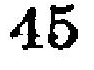45
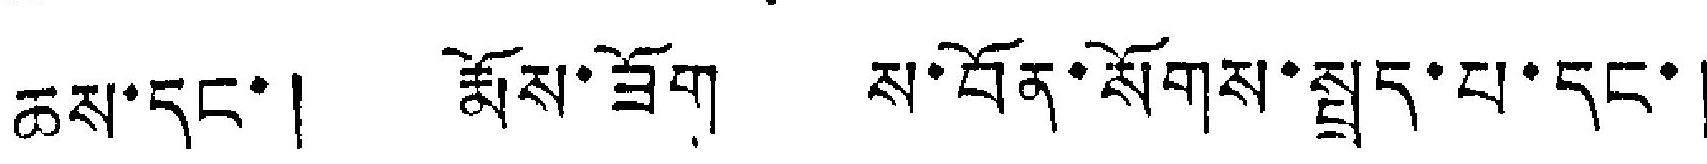ཆས་དང་། རྨོས་ཟོག ས་བོན་སོགས་སྤྲད་པ་དང་།
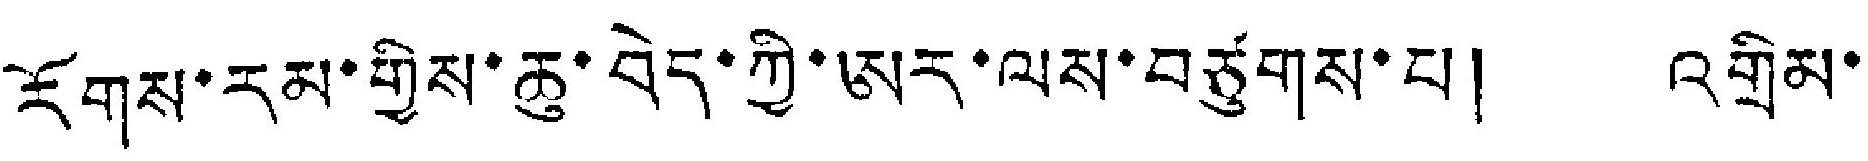རོགས་རམ་གྱིས་ཆུ་བེད་ཀྱི་ཨར་ལས་བཙུགས་པ། འགྲིམ་
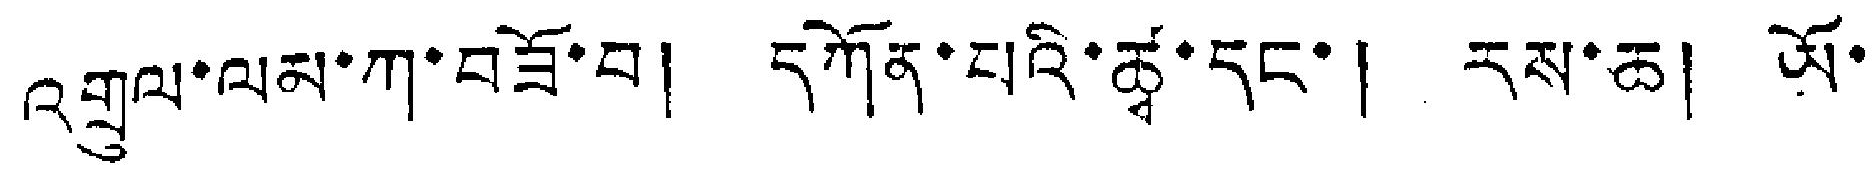འགྲུལ་ལམ་ཀ་བཟོ་བ། དཀོན་པའི་ཚྭ་དང་། རས་ཆ། ཡོ་
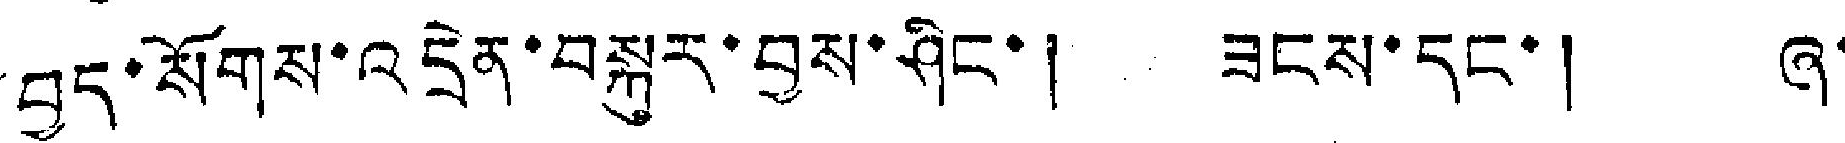བྱད་སོགས་འདྲེན་བསྐུར་བྱས་ཤིང་། ཟངས་དང་། ཞ་
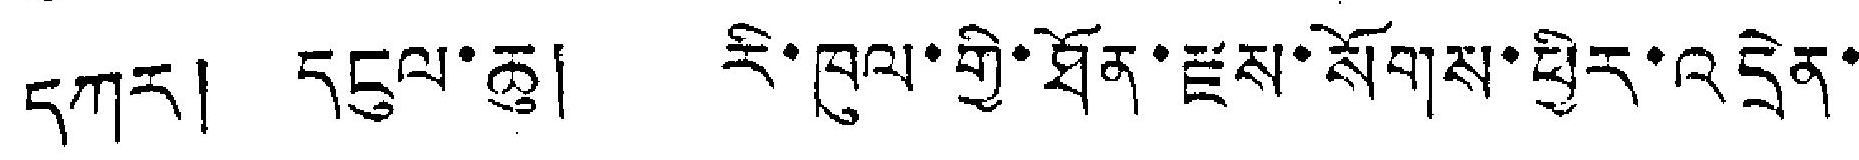དཀར། དངུལ་ཆུ། རི་ཁུལ་གྱི་ཐོན་རྫས་སོགས་ཕྱིར་འདྲེན་
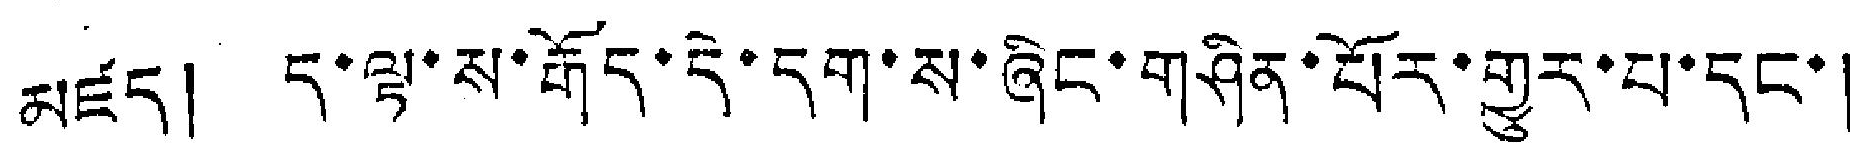མཛད། ད་ལྟ་ས་རྒོད་དེ་དག་ས་ཞིང་གཤིན་པོར་གྱུར་པ་དང་།
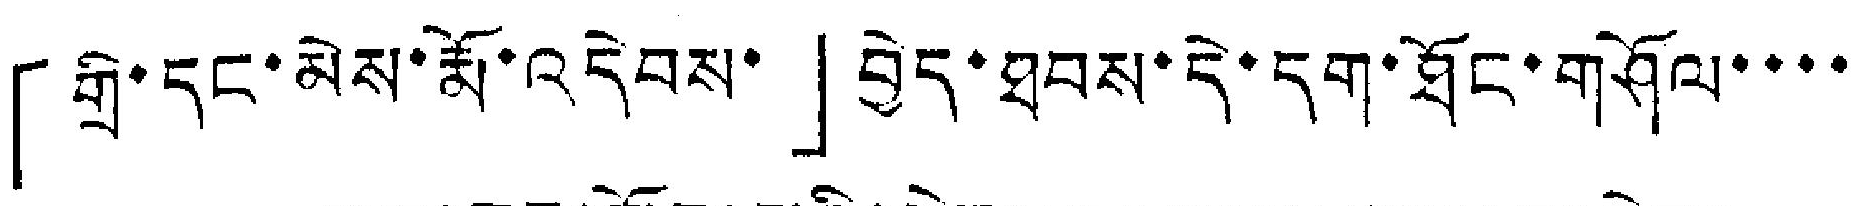「གྲི་དང་མེས་རྨོ་འདེབས་」བྱེད་ཐབས་དེ་དག་ཐོང་གཤོལ་་་་
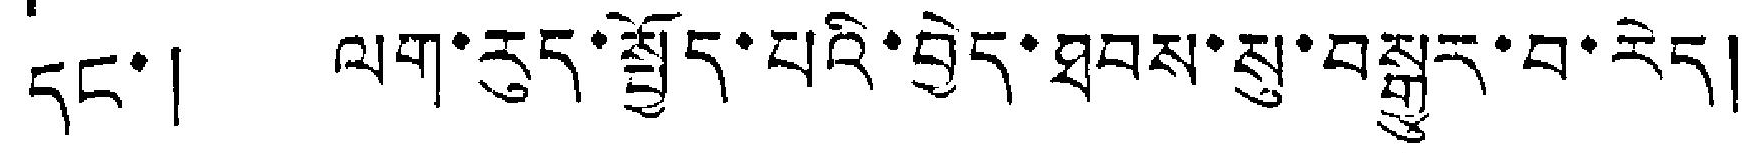དང་། ལག་རུད་སྤྱོད་པའི་བྱེད་ཐབས་སུ་བསྒྱུར་བ་རེད།
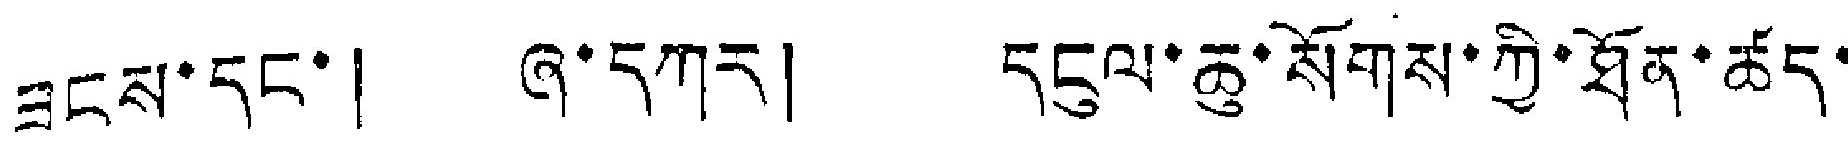ཟངས་དང་། ཞ་དཀར། དངུལ་ཆུ་སོགས་ཀྱི་ཐོན་ཚད་་
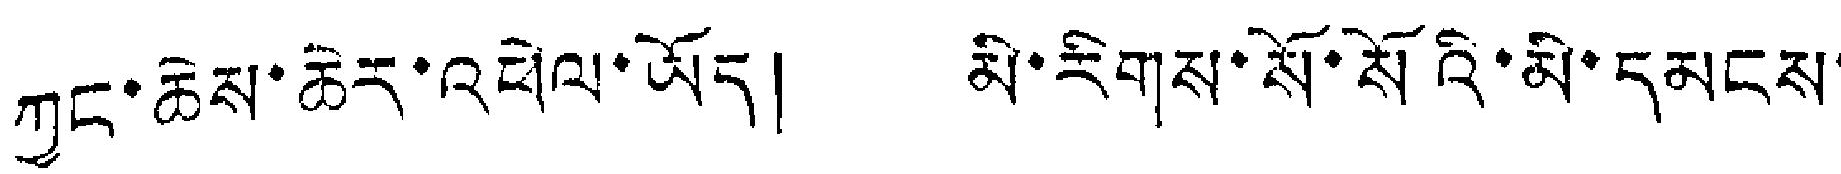ཀྱང་ཆེས་ཆེར་འཕེལ་ཡོད། མི་རིགས་སོ་སོའི་མི་དམངས་
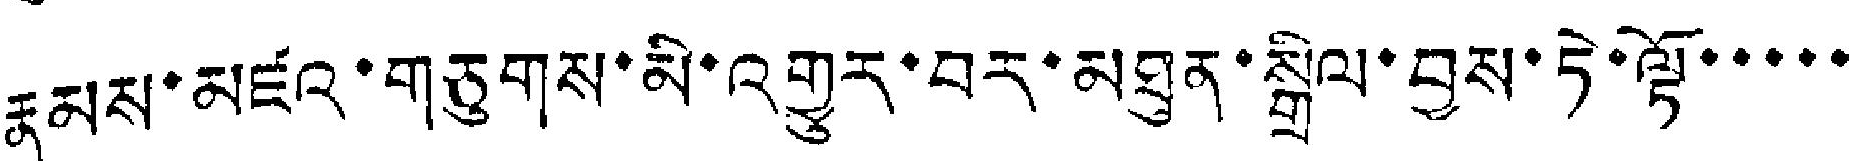རྣམས་མཛའ་གཅུགས་མི་འགྱུར་བར་མཐུན་སྒྲིལ་བྱས་ཏེ་ལྟོ་་་་་་
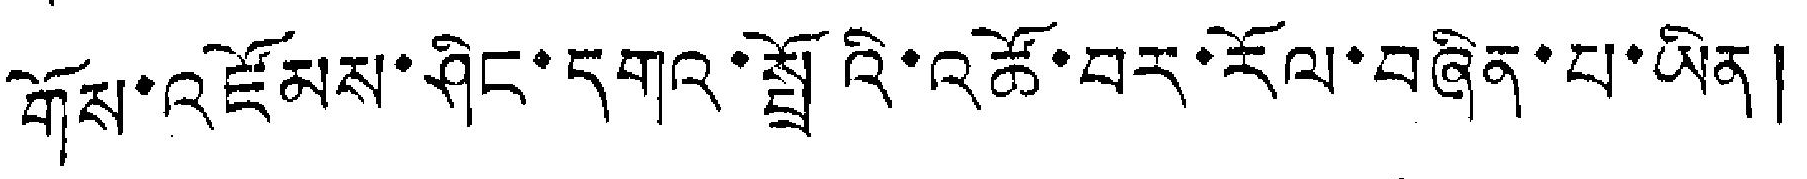གོས་འཛོམས་ཤིང་དགའ་སྤྲོའི་འཚོ་བར་རོལ་བཞིན་པ་ཡིན།
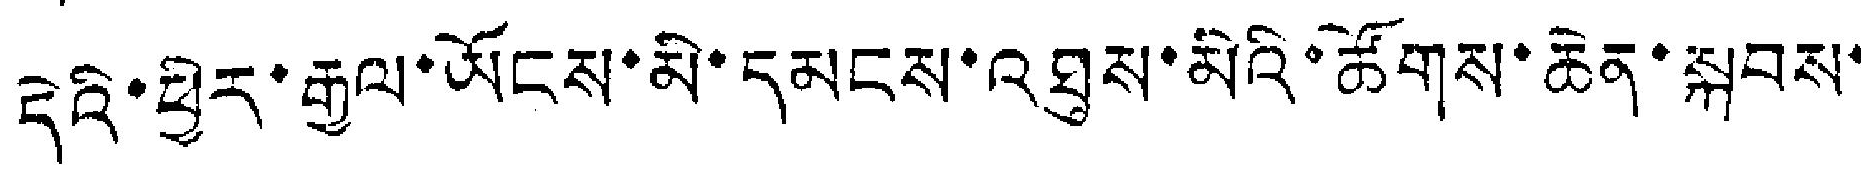དེའི་ཕྱིར་རྒྱལ་ཡོངས་མི་དམངས་འཐུས་མིའི་ཚོགས་ཆེན་སྐབས་
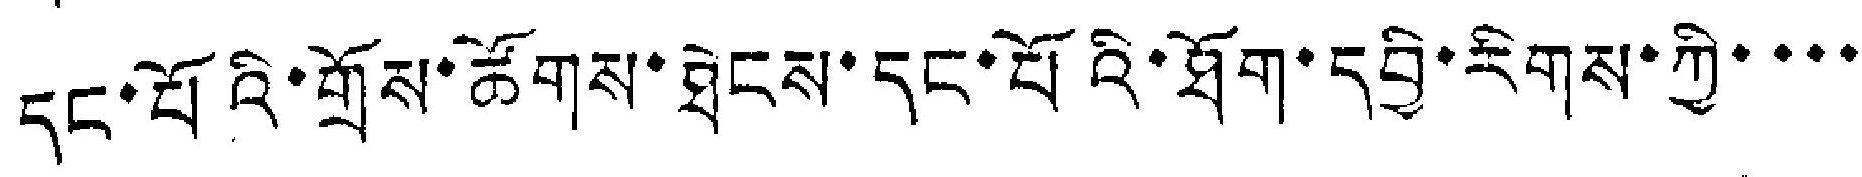དང་པོའི་གྲོས་ཚོགས་ཐེངས་དང་པོའི་ཐོག་དབྱི་རིགས་ཀྱི་་་་
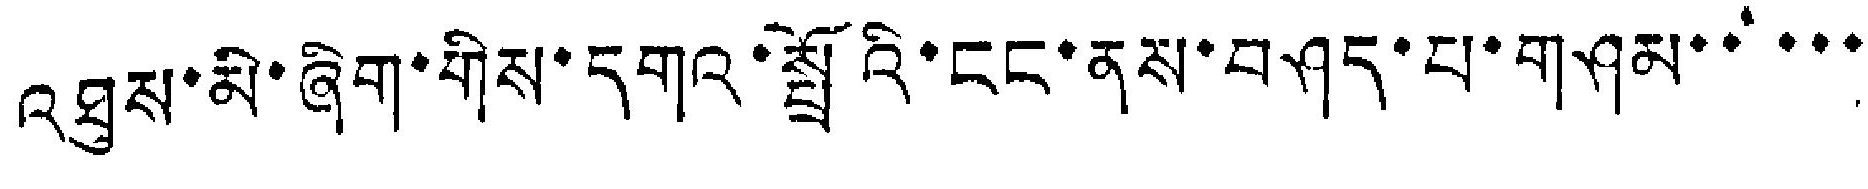འཐུས་མི་ཞིག་གིས་དགའ་སྤྲོའི་ངང་ནས་བཤད་པ་གཤམ་་་་་
